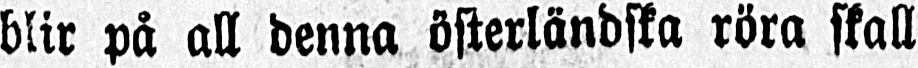blir på all denna österländska röra skall
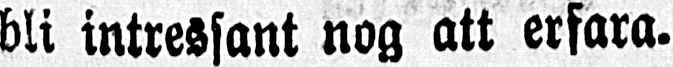bli intressant nog att erfara.
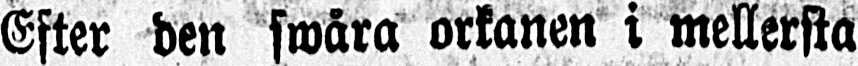Efter den swåra orkanen i mellersta
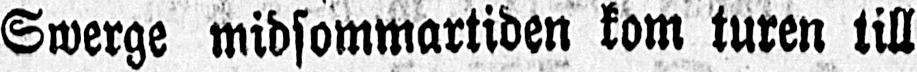Swerge midsommartiden kom turen till
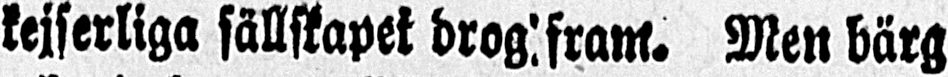kejserliga sällskapet drog fram. Men bärg
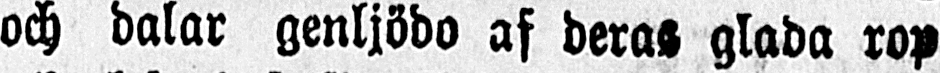och dalar genljödo af deras glada rop
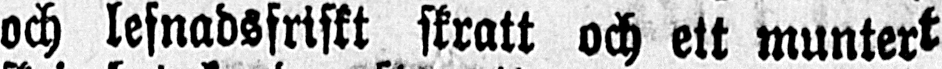och lefnadsfriskt skratt och ett muntert
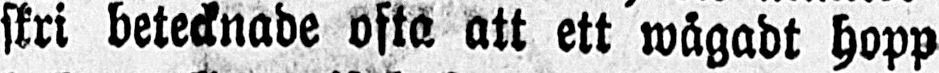skri betecknade ofta att ett wågadt hopp
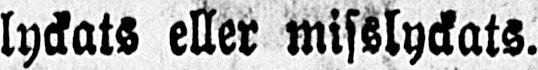lyckats eller misslyckats.
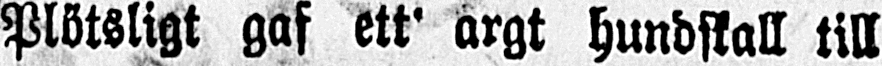Plötsligt gaf ett argt hundskall till
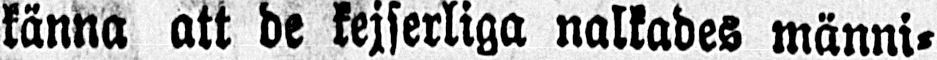känna att de kejserliga nalkades männi-
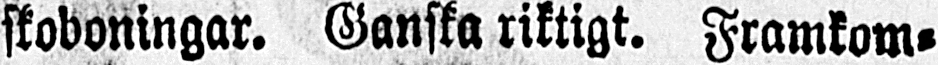skoboningar. Ganska riktigt. Framkom-
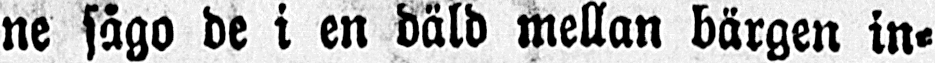ne sågo de i en däld mellan bärgen in-
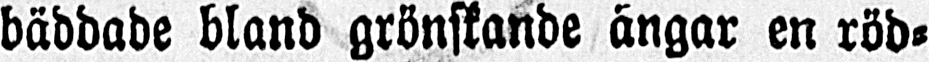bäddade bland grönskande ängar en röd-
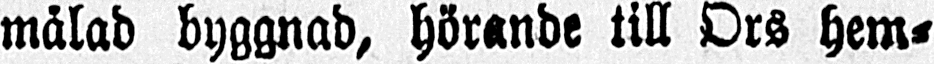målad byggnad, hörande till Ors hem-
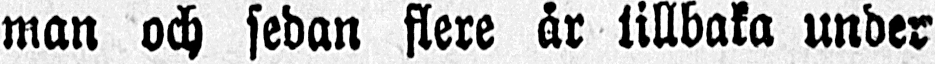man och sedan flere år tillbaka under
